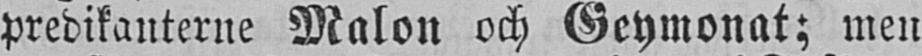predikanterne Malon och Geymonat; men
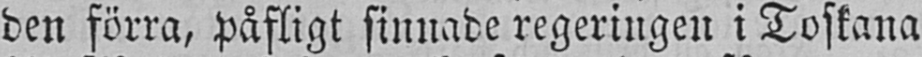den förra, påfligt sinnade regeringen i Toskana
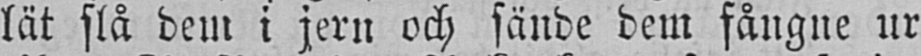lät slå dem i jern och sände dem fångne ur
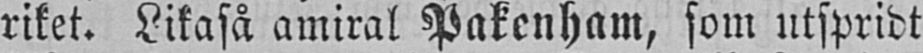riket. Likaså amiral Pakenham, som utspridt
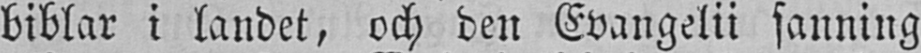biblar i landet, och den Evangelii sanning
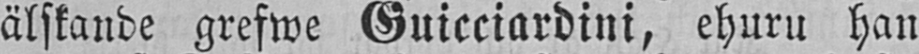älskande grefwe Guicciardini, ehuru han
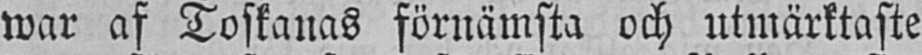war af Toskanas förnämsta och utmärktaste
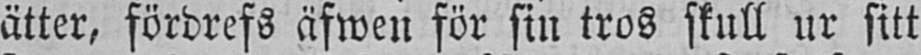ätter, fördrefs äfwen för sin tros skull ur sitt
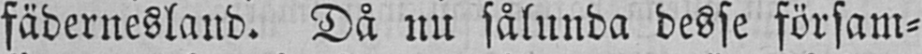fädernesland. Då nu sålunda desse försam-
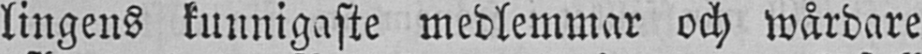lingens kunnigaste medlemmar och wårdare
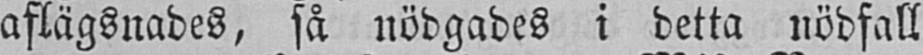aflägsnades, så nödgades i detta nödfall
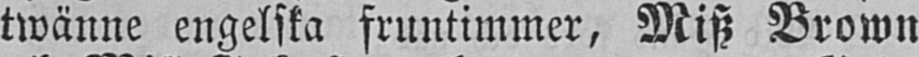twänne engelska fruntimmer, Misz Brown
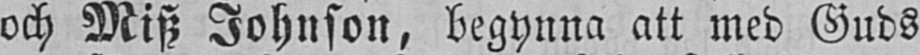och Misz Johnson, begynna att med Guds
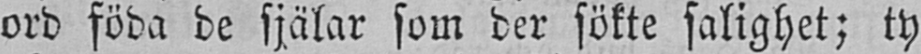ord föda de själar som der sökte salighet; ty
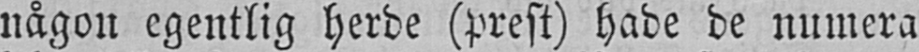någon egentlig herde (prest) hade de numera
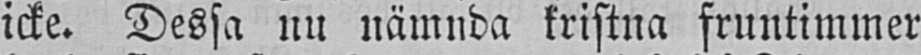icke. Dessa nu nämnda kristna fruntimmer
